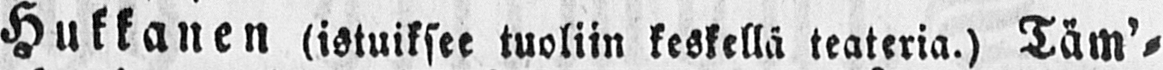Hukkanen (istuiksee tuoliin keskellä teateria.) Täm'-
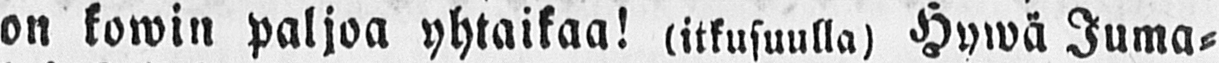on kowin paljoa yhtaikaa! (itkusuulla) Hywä Juma-
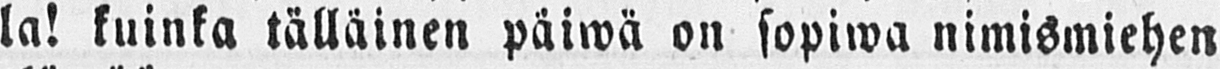la! kuinka tällainen päiwä on sopiwa nimismiehen
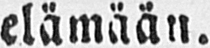elämään.
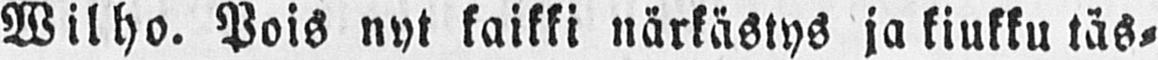Wilho. Pois nyt kaikki närkästys ja kiukku täs-
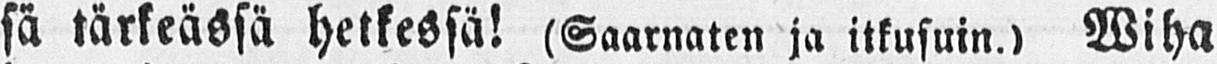sä tärkeässä hetkessä! (Saarnaten ja itkusuin.) Wiha
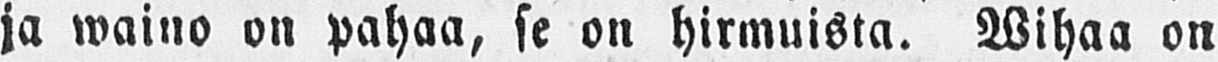ja waino on pahaa, se on hirmuista. Wihaa on
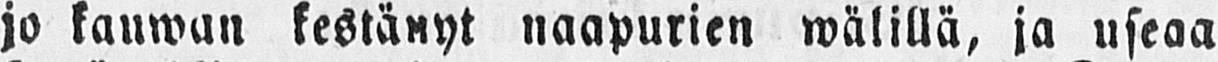jo kauwan kestänyt naapurien wälillä, ja useaa
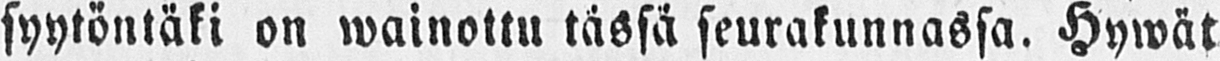syytöntäki on wainottu tässä seurakunnassa. Hywät
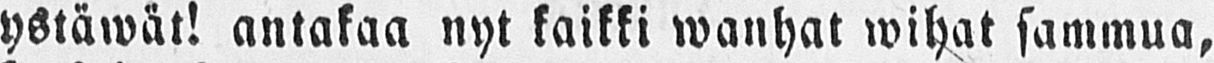ystäwät! antakaa nyt kaikki wanhat wihat sammua,
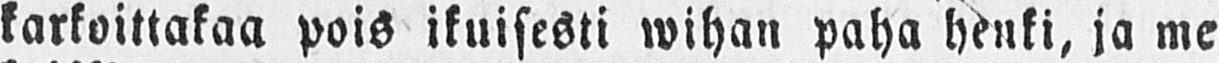karkoittakaa pois ikuisesti wihan paha henki, ja me
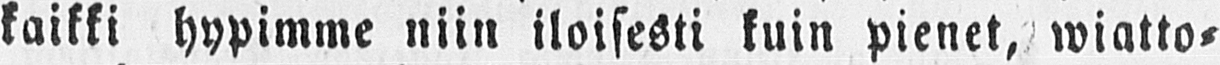kaikki hypimme niin iloisesti kuin pienet, wiatto-
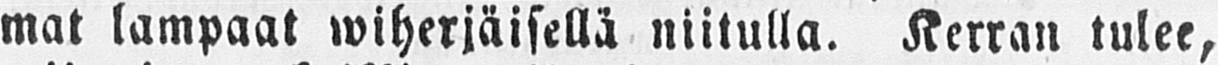mat lampaat wiherjäisellä niitulla. Kerran tulee,
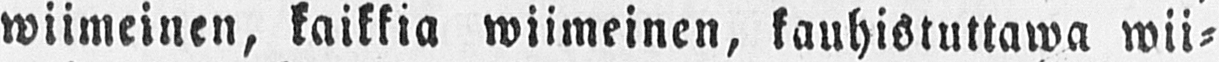wiimeinen, kaikkia wiimeinen, kauhistuttawa wii-
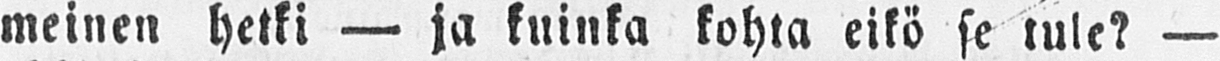meinen hetki — ja kuinka kohta eikö se tule? —
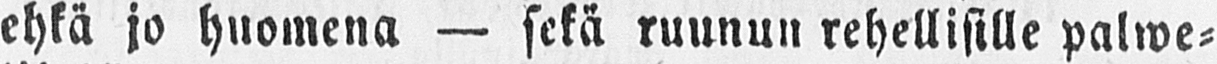ehkä jo huomena — sekä ruunun rehellisille palwe-
